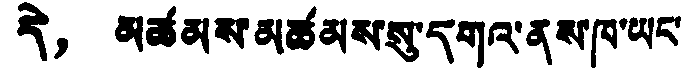དེ， མཚམས་མཚམས་སུ་དགའ་ནས་ཁ་ཡང་
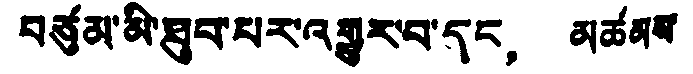བཙུམ་མི་ཐུབ་པར་འགྱུར་བ་དང， མཚམས
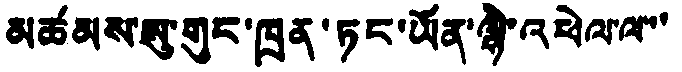མཚམས་སུ་གུང་ཁྲན་ཏང་ཡོན་ལྷ་འཕེལ་ལ་་
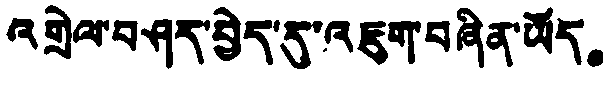འགྲེལ་བཤད་བྱེད་དུ་འཇུག་བཞིན་ཡོད。
